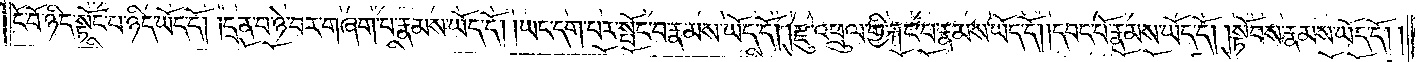ངོ་བོ་ཉིད་སྟོང་པ་ཉིད་ཡོད་དོ། །དྲན་པ་ཉེ་བར་གཞག་པ་རྣམས་ཡོད་དོ། །ཡང་དག་པར་སྤོང་བ་རྣམས་ཡོད་དོ། །རྫུ་འཕྲུལ་གྱི་རྐང་པ་རྣམས་ཡོད་དོ། །དབང་པོ་རྣམས་ཡོད་དོ། །སྟོབས་རྣམས་ཡོད་དོ། །
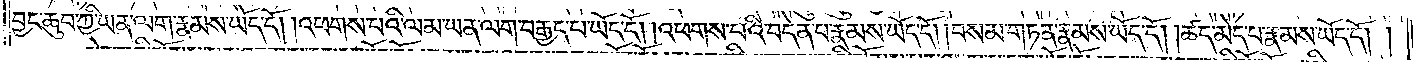བྱང་ཆུབ་ཀྱི་ཡན་ལག་རྣམས་ཡོད་དོ། །འཕགས་པའི་ལམ་ཡན་ལག་བརྒྱད་པ་ཡོད་དོ། །འཕགས་པའི་བདེན་པ་རྣམས་ཡོད་དོ། །བསམ་གཏན་རྣམས་ཡོད་དོ། །ཚད་མེད་པ་རྣམས་ཡོད་དོ། །
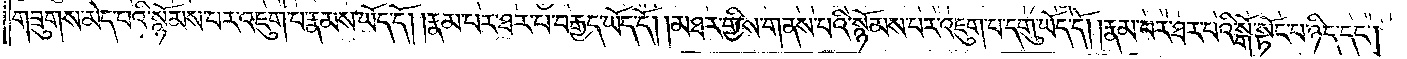གཟུགས་མེད་པའི་སྙོམས་པར་འཇུག་པ་རྣམས་ཡོད་དོ། །རྣམ་པར་ཐར་པ་བརྒྱད་ཡོད་དོ། །མཐར་གྱིས་གནས་པའི་སྙོམས་པར་འཇུག་པ་དགུ་ཡོད་དོ། །རྣམ་པར་ཐར་པའི་སྒོ་སྟོང་པ་ཉིད་དང༌།
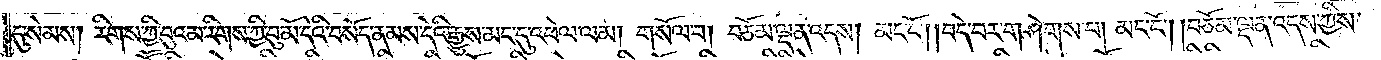དུ་སེམས། རིགས་ཀྱི་བུའམ་རིགས་ཀྱི་བུ་མོ་དེའི་བསོད་ནམས་དེའི་རྒྱུས་མང་དུ་འཕེལ་ལམ། གསོལ་བ། བཅོམ་ལྡན་འདས། མང་ངོ༌། །བདེ་བར་གཤེགས་པ། མང་ངོ༌། །བཅོམ་ལྡན་འདས་ཀྱིས་
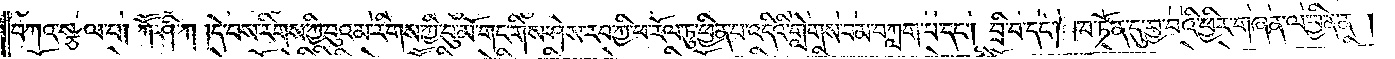བཀའ་སྩལ་པ། ཀཽ་ཤི་ཀ །དེ་བས་རིགས་ཀྱི་བུའམ་རིགས་ཀྱི་བུ་མོ་གང་གིས་ཤེས་རབ་ཀྱི་ཕ་རོལ་ཏུ་ཕྱིན་པ་འདི་གླེགས་བམ་བཀླག་པ་དང༌། བྲི་བ་དང༌། ཁ་ཏོན་དུ་བྱ་བའི་ཕྱིར་གཞན་ལ་བྱིན་ན།
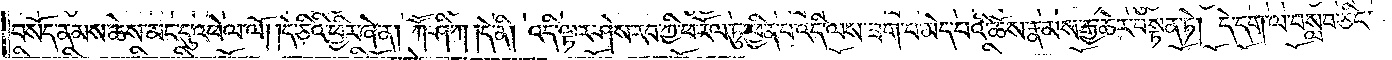བསོད་ནམས་ཆེས་མང་དུ་འཕེལ་ལོ། །དེ་ཅིའི་ཕྱིར་ཞེ་ན། ཀཽ་ཤི་ཀ །དེ་ནི། འདི་ལྟར་ཤེས་རབ་ཀྱི་ཕ་རོལ་ཏུ་ཕྱིན་པ་འདི་ལས་ཟག་པ་མེད་པའི་ཆོས་རྣམས་རྒྱ་ཆེར་བསྟན་ཏེ། དེ་དག་ལ་བསླབ་ཅིང་
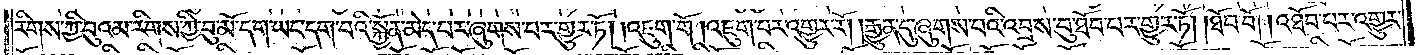རིགས་ཀྱི་བུའམ་རིགས་ཀྱི་བུ་མོ་དག་ཡང་དག་པའི་སྐྱོན་མེད་པར་ཞུགས་པར་གྱུར་ཏོ། །འཇུག་གོ །འཇུག་པར་འགྱུར་རོ། །རྒྱུན་དུ་ཞུགས་པའི་འབྲས་བུ་ཐོབ་པར་གྱུར་ཏོ། །ཐོབ་བོ། འཐོབ་པར་འགྱུར་
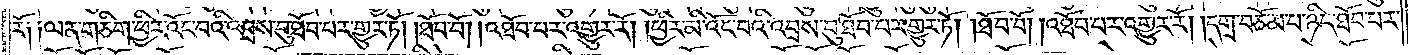རོ། །ལན་གཅིག་ཕྱིར་འོང་བའི་འབྲས་བུ་ཐོབ་པར་གྱུར་ཏོ། །ཐོབ་བོ། །འཐོབ་པར་འགྱུར་རོ། །ཕྱིར་མི་འོང་བའི་འབྲས་བུ་ཐོབ་པར་གྱུར་ཏོ། །ཐོབ་བོ། འཐོབ་པར་འགྱུར་རོ། །དགྲ་བཅོམ་པ་ཉིད་ཐོབ་པར་
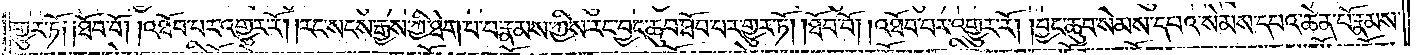གྱུར་ཏོ། །ཐོབ་བོ། འཐོབ་པར་འགྱུར་རོ། །རང་སངས་རྒྱས་ཀྱི་ཐེག་པ་པ་རྣམས་ཀྱིས་རང་བྱང་ཆུབ་ཐོབ་པར་གྱུར་ཏོ། །ཐོབ་བོ། འཐོབ་པར་འགྱུར་རོ། །བྱང་ཆུབ་སེམས་དཔའ་སེམས་དཔའ་ཆེན་པོ་རྣམས་
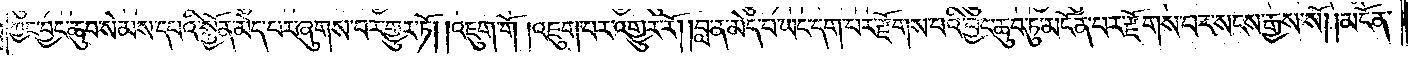ཀྱང་བྱང་ཆུབ་སེམས་དཔའི་སྐྱོན་མེད་པར་ཞུགས་པར་གྱུར་ཏོ། །འཇུག་གོ །འཇུག་པར་འགྱུར་རོ། །བླ་ན་མེད་པ་ཡང་དག་པར་རྫོགས་པའི་བྱང་ཆུབ་ཏུ་མངོན་པར་རྫོགས་པར་སངས་རྒྱས་སོ། །མངོན་
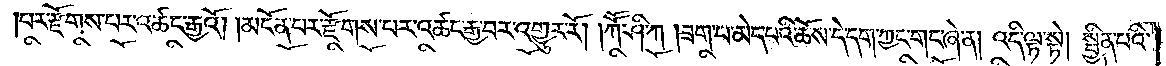པར་རྫོགས་པར་འཚང་རྒྱའོ། །མངོན་པར་རྫོགས་པར་འཚང་རྒྱ་བར་འགྱུར་རོ། །ཀཽ་ཤི་ཀ །ཟག་པ་མེད་པའི་ཆོས་དེ་དག་ཀྱང་གང་ཞེ་ན། འདི་ལྟ་སྟེ། སྦྱིན་པའི་
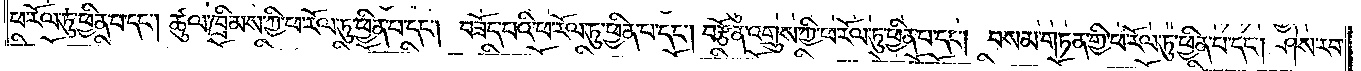ཕ་རོལ་ཏུ་ཕྱིན་པ་དང༌། ཚུལ་ཁྲིམས་ཀྱི་ཕ་རོལ་ཏུ་ཕྱིན་པ་དང༌། བཟོད་པའི་ཕ་རོལ་ཏུ་ཕྱིན་པ་དང༌། བརྩོན་འགྲུས་ཀྱི་ཕ་རོལ་ཏུ་ཕྱིན་པ་དང༌། བསམ་གཏན་གྱི་ཕ་རོལ་ཏུ་ཕྱིན་པ་དང༌། ཤེས་རབ་
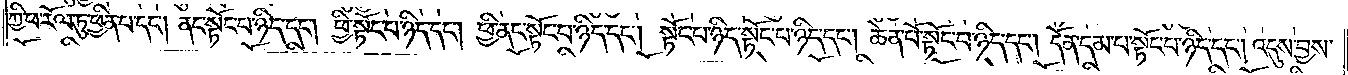ཀྱི་ཕ་རོལ་ཏུ་ཕྱིན་པ་དང༌། ནང་སྟོང་པ་ཉིད་དང༌། ཕྱི་སྟོང་པ་ཉིད་དང༌། ཕྱི་ནང་སྟོང་པ་ཉིད་དང༌། སྟོང་པ་ཉིད་སྟོང་པ་ཉིད་དང༌། ཆེན་པོ་སྟོང་པ་ཉིད་དང༌། དོན་དམ་པ་སྟོང་པ་ཉིད་དང༌། འདུས་བྱས་
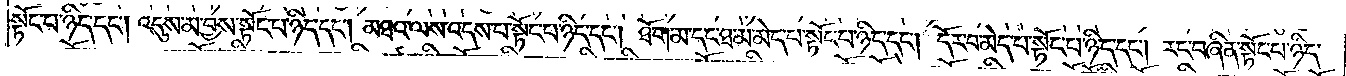སྟོང་པ་ཉིད་དང༌། འདུས་མ་བྱས་སྟོང་པ་ཉིད་དང༌། མཐའ་ལས་འདས་པ་སྟོང་པ་ཉིད་དང༌། ཐོག་མ་དང་ཐ་མ་མེད་པ་སྟོང་པ་ཉིད་དང༌། དོར་བ་མེད་པ་སྟོང་པ་ཉིད་དང༌། རང་བཞིན་སྟོང་པ་ཉིད་
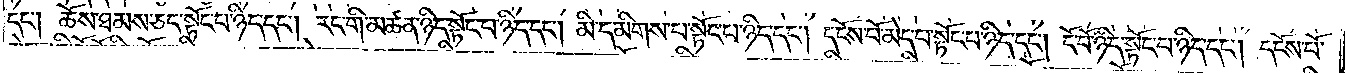དང༌། ཆོས་ཐམས་ཅད་སྟོང་པ་ཉིད་དང༌། རང་གི་མཚན་ཉིད་སྟོང་པ་ཉིད་དང༌། མི་དམིགས་པ་སྟོང་པ་ཉིད་དང༌། དངོས་པོ་མེད་པ་སྟོང་པ་ཉིད་དང༌། ངོ་བོ་ཉིད་སྟོང་པ་ཉིད་དང༌། དངོས་པོ་
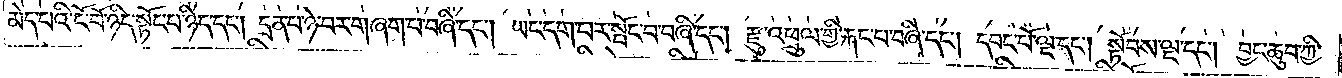མེད་པའི་ངོ་བོ་ཉིད་སྟོང་པ་ཉིད་དང༌། དྲན་པ་ཉེ་བར་གཞག་པ་བཞི་དང༌། ཡང་དག་བར་སྤོང་བ་བཞི་དང༌། རྫུ་འཕྲུལ་གྱི་རྐང་པ་བཞི་དང༌། དབང་པོ་ལྔ་དང༌། སྟོབས་ལྔ་དང༌། བྱང་ཆུབ་ཀྱི་
